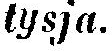lysja.
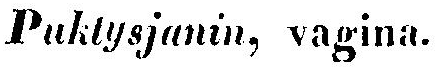Puktysjanin, vagina.
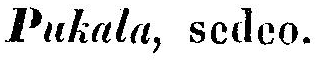Pukala, sedeo.
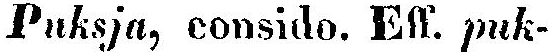Puksja, consido. Eff. puk-
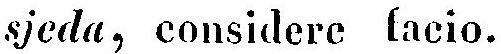sjeda, considere facio.
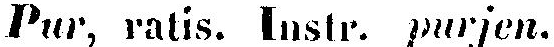Pur ratis. Instr. purjen.
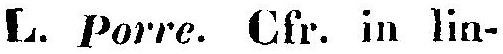L. Porre. Cfr. in lin-
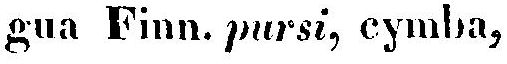gua Finn. pursi, cymba,
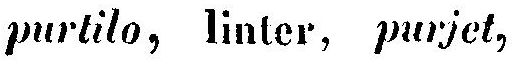purtilo, linter, purjet,
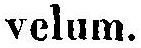velum.
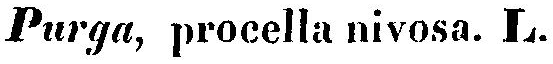Purga, procella nivosa. L.
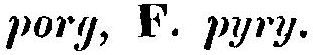porg, F. pyry.
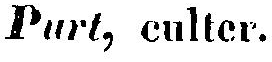Purt, culter.
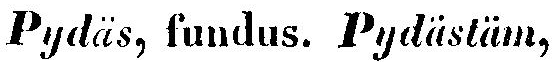Pydäs, fundus. Pydästäm,
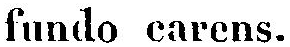fundo carens.
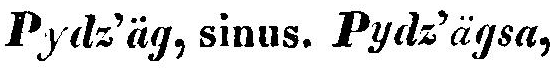Pydz'äg, sinus. Pydz'ägsa,
